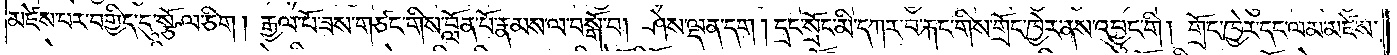མཛེས་པར་བགྱིད་དུ་སྩོལ་ཅིག། རྒྱལ་པོ་ཟས་གཙང་གིས་བློན་པོ་རྣམས་ལ་བསྒོ་བ། ཤེས་ལྡན་དག། དྲང་སྲོང་མི་དཀར་བ་རྐང་གིས་གྲོང་ཁྱེར་ནས་འབྱུང་གི། གྲོང་ཁྱེར་དང་ལམ་མཛེས་
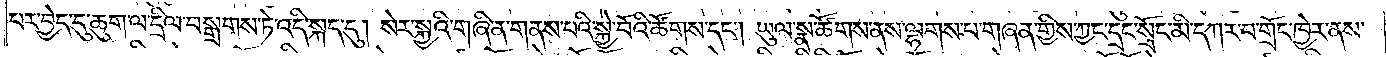པར་བྱེད་དུ་ཆུག་ལ་དྲིལ་བསྒྲགས་ཏེ་འདི་སྐད་དུ། སེར་སྐྱའི་གཞི་ན་གནས་པའི་སྐྱེ་བོའི་ཚོགས་དང༌། ཡུལ་སྣ་ཚོགས་ནས་ལྷགས་པ་གཞན་གྱིས་ཀྱང་དྲང་སྲོང་མི་དཀར་བ་གྲོང་ཁྱེར་ནས་
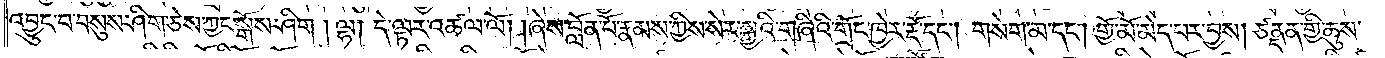འབྱུང་བ་བསུས་ཤིག་ཅེས་ཀྱང་སྒོས་ཤིག། ལྷ། དེ་ལྟར་འཚལ་ལོ། །ཞེས་བློན་པོ་རྣམས་ཀྱིས་སེར་སྐྱའི་གཞིའི་གྲོང་ཁྱེར་རྡོ་དང༌། གསེག་མ་དང༌། གྱོ་མོ་མེད་པར་བྱས། ཙནྡན་གྱི་ཆུས་
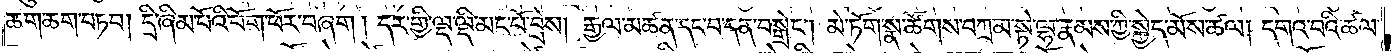ཆག་ཆག་བཏབ། དྲི་ཞིམ་པོའི་པོག་ཕོར་བཞག། དར་གྱི་ལྔ་ལྡི་མང་པོ་བྲེས། རྒྱལ་མཚན་དང་བ་དན་བསྒྲེང༌། མེ་ཏོག་སྣ་ཚོགས་བཀྲམ་སྟེ་ལྷ་རྣམས་ཀྱི་སྐྱེད་མོས་ཚལ། དགའ་བའི་ཚལ་
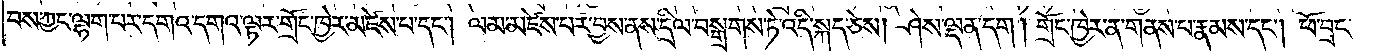བས་ཀྱང་ལྷག་པར་དགའ་དགའ་ལྟར་གྲོང་ཁྱེར་མཛེས་པ་དང༌། ལམ་མཛེས་པར་བྱས་ནས་དྲིལ་བསྒྲགས་ཏེ་འདི་སྐད་ཅེས། ཤེས་ལྡན་དག །གྲོང་ཁྱེར་ན་གནས་པ་རྣམས་དང༌། ཕོ་བྲང་
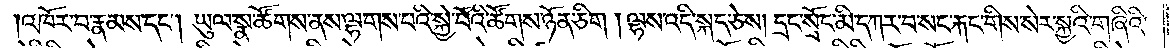འཁོར་བ་རྣམས་དང༌། ཡུལ་སྣ་ཚོགས་ནས་ལྷགས་པའི་སྐྱེ་བོའི་ཚོགས་ཉོན་ཅིག། ལྷས་འདི་སྐད་ཅེས། དྲང་སྲོང་མི་དཀར་བ་སང་རྐང་གིས་སེར་སྐྱའི་གཞིའི་
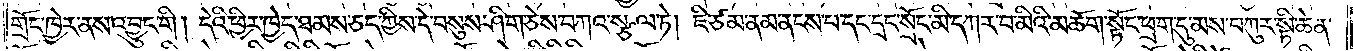གྲོང་ཁྱེར་ནས་འབྱུང་གི། དེའི་ཕྱིར་ཁྱེད་ཐམས་ཅད་ཀྱིས་དེ་བསུས་ཤིག་ཅེས་བཀའ་སྩལ་ཏེ། ཇི་ཙམ་ནམ་ནངས་པ་དང་དྲང་སྲོང་མི་དཀར་བ་མིའི་མཆོག་སྟོང་ཕྲག་དུ་མས་བཀུར་སྟི་ཆེན་
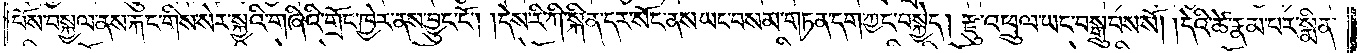པོས་བསྐྱལ་ནས་རྐང་གིས་སེར་སྐྱའི་གཞིའི་གྲོང་ཁྱེར་ནས་བྱུང་ངོ༌། །དེས་རི་ཀི་སྐིན་དར་སོང་ནས་ཡང་བསམ་གཏན་དག་ཀྱང་བསྐྱེད། རྫུ་འཕྲུལ་ཡང་བསྒྲུབས་སོ། །དེའི་ཚེ་རྣམ་པར་སྨིན་
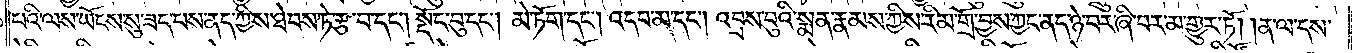པའི་ལས་ཡོངས་སུ་ཟད་པས་ནད་ཀྱིས་ཐེབས་ཏེ་རྩ་བ་དང༌། སྡོང་བུ་དང༌། མེ་ཏོག་དང༌། འདབ་མ་དང༌། འབྲས་བུའི་སྨན་རྣམས་ཀྱིས་རིམ་གྲོ་བྱས་ཀྱང་ནད་ཉེ་བར་ཞི་བར་མ་གྱུར་ཏོ། །ན་ལ་དས་
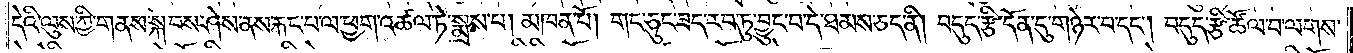དེའི་ལུས་ཀྱི་གནས་སྐབས་ཤེས་ནས་རྐང་པ་ལ་ཕྱག་འཚལ་ཏེ་སྨྲས་པ། མཁན་པོ། གང་ཅུང་ཟད་རབ་ཏུ་བྱུང་བ་དེ་ཐམས་ཅད་ནི། བདུད་རྩི་དོན་དུ་གཉེར་བ་དང༌། བདུད་རྩི་ཚོལ་བ་ལགས་
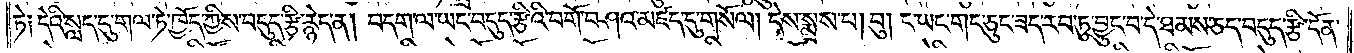ཏེ༑ དེའི་སླད་དུ་གལ་ཏེ་ཁྱོད་ཀྱིས་བདུད་རྩི་རྙེད་ན། བདག་ལ་ཡང་བདུད་རྩིའི་བགོ་བཤའ་མཛད་དུ་གསོལ། དེས་སྨྲས་པ། བུ། ང་ཡང་གང་ཅུང་ཟད་རབ་ཏུ་བྱུང་བ་དེ་ཐམས་ཅད་བདུད་རྩི་དོན་
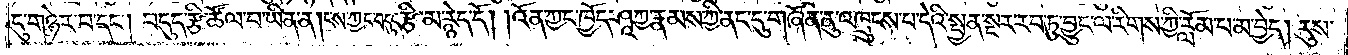དུ་གཉེར་བ་དང༌། བདུད་རྩི་ཚོལ་བ་ཡིན་ན། ངས་ཀྱང་བདུད་རྩི་མ་རྙེད་དོ། །འོན་ཀྱང་ཁྱོད་ཤཱཀྱ་རྣམས་ཀྱི་ནང་དུ་གཞོན་ནུ་འཁྲུངས་པ་དེའི་སྤྱན་སྔར་རབ་ཏུ་བྱུང་ལ་རིགས་ཀྱི་རློམ་པ་མ་བྱེད། རུས་
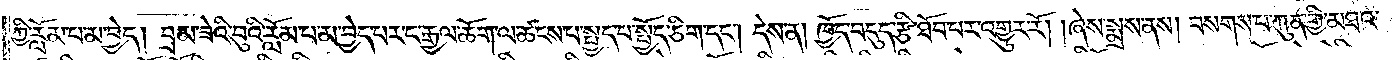ཀྱི་རློམ་པ་མ་བྱེད། བྲམ་ཟེའི་བུའི་རློམ་པ་མ་བྱེད་པར་ང་རྒྱལ་ཆོག་ལ་ཚངས་པ་སྤྱད་པ་སྤྱོད་ཅིག་དང༌། དེས་ན། ཁྱོད་བདུད་རྩི་ཐོབ་པར་འགྱུར་རོ། །ཞེས་སྨྲས་ནས། བསགས་པ་ཀུན་གྱི་མཐའ་
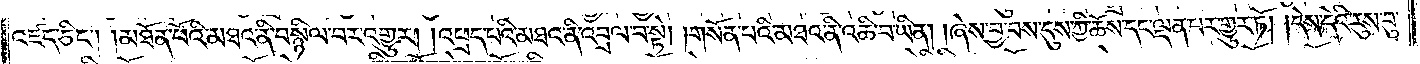འཛད་ཅིང༌། །མཐོན་པོའི་མཐའ་ནི་བསྙིལ་བར་འགྱུར། །འཕྲད་པའི་མཐའ་ནི་འབྲལ་བ་སྟེ། གསོན་པའི་མཐའ་ནི་འཆི་བ་ཡིན། །ཞེས་བྱ་བས་དུས་ཀྱི་ཆོས་དང་ལྡན་པར་གྱུར་ཏོ། །དེས་དེའི་རུས་བུ་
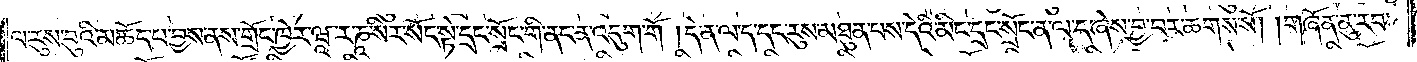ལ་རུས་བུའི་མཆོད་པ་བྱས་ནས་གྲོང་ཁྱེར་ཝཱ་ར་ཎཱ་སིར་སོང་སྟེ་དྲང་སྲོང་གི་ནང་ན་འདུག་གོ །དེ་ན་ལ་ད་དང་རུས་མཐུན་པས་དེའི་མིང་དྲང་སྲོང་ན་ལ་ད་ཞེས་བྱ་བར་ཆགས་སོ། །གཞོན་ནུ་རབ་
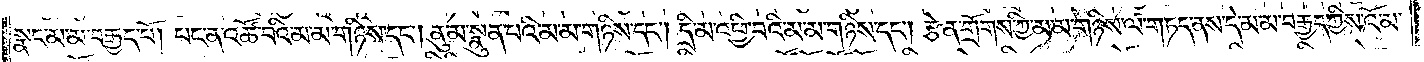སྣང་མ་མ་བརྒྱད་པོ། པང་ན་འཚོ་བའི་མ་མ་གཉིས་དང༌། ནུ་མ་སྣུན་པའི་མ་མ་གཉིས་དང༌། དྲི་མ་འཕྱི་བའི་མ་མ་གཉིས་དང༌། རྩེན་གྲོགས་ཀྱི་མ་མ་གཉིས་ལ་གཏད་ནས་དེ་མ་མ་བརྒྱད་ཀྱིས་འོ་མ་
